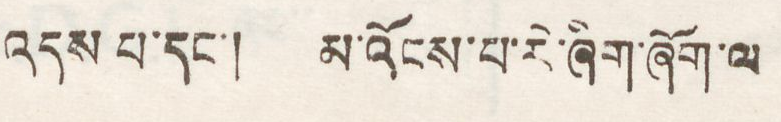འདས པ་དང། མ་འོངས་པ་རེ་ཞིག་ཞིག་ལ
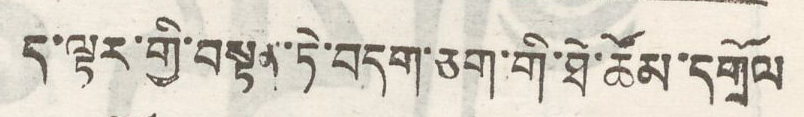ད་ལྟར་གྱི་བསྟན་ཏེ་བདག་ཅག་གི་ཐེ་ཚོམ་དགྲོལ
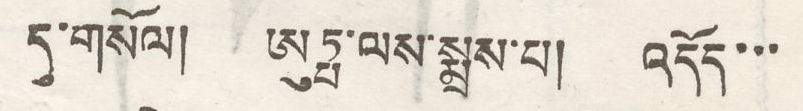དུ་གསོལ། ཨུཏྤ་ལས་སྨྲས་པ། འདོད་་་
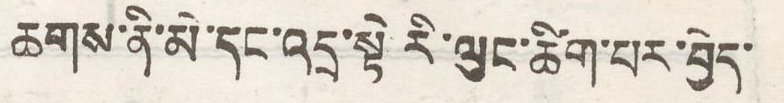ཆགས་ནི་མེ་དང་འདྲ་སྟེ རི་ལུང་ཚིག་པར་བྱེད་
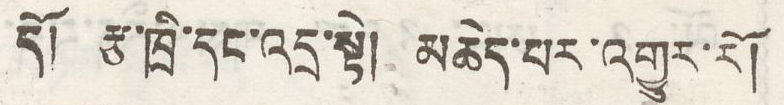དོ། རྩ་ཁྲི་དང་འདྲ་སྟེ། མཆེད་པར་འགྱུར་རོ།
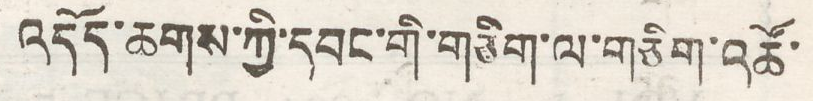འདོད་ཆགས་ཀྱི་དབང་གི་གཅིག་ལ་གཅིག་འཚོ་
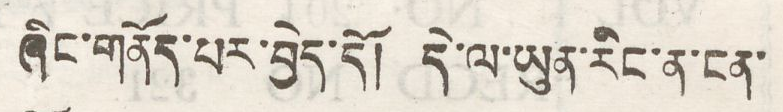ཞིང་གནོད་པར་བྱེད་དོ། དེ་ལ་ཡུན་རིང་ན་ངན་
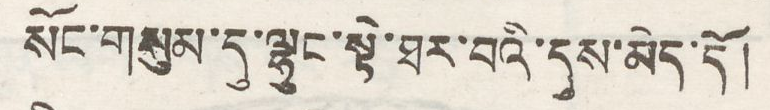སོང་གསུམ་དུ་ལྷུང་སྟེ་ཐར་བའི་དུས་མེད་དོ།
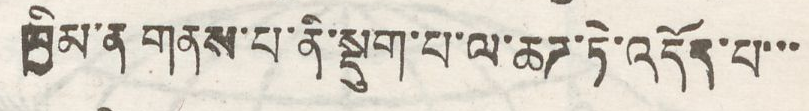ཁྱིམ་ན གནས་པ་ནི་སྡུག་པ་ལ་ཆཌ་ཏེ་འདོད་པ་་་
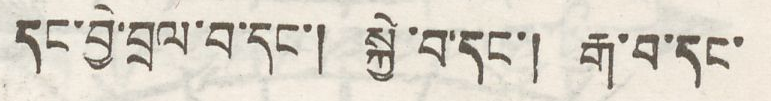དང་བྱེ་བྲལ་བ་དང་། སྐྱེ་བ་དང་། རྒ་བ་དང་
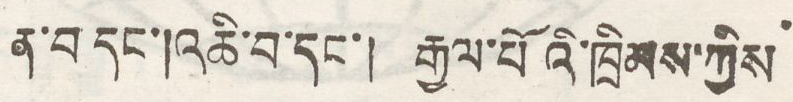ན་བ དང་། འཆི་བ་དང་། རྒྱལ་པོའི་ཁྲིམས་ཀྱིས
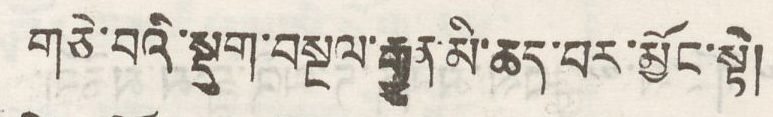གཅེས་བའི་སྡུག་བསྔལ་རྒྱུན་མི་ཆད་པར་མྱོང་སྟེ།
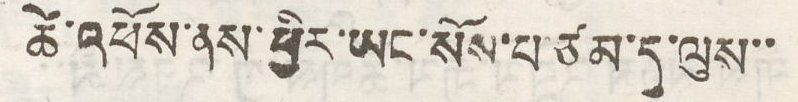ཚེ་འཕོས་ནས་ཕྱིར་ཡང་སོས་པ ཙམ་དུ་ལུས་་
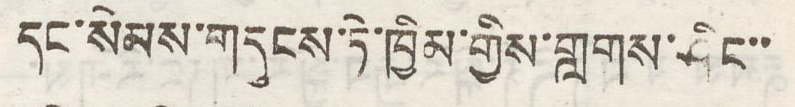དང་སེམས་གདུངས་ཏེ་ཁྱིམ་གྱིས་གླགས་ཤིང་་
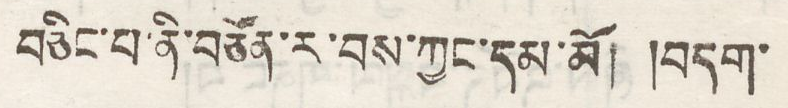བཅིང་བ་ནི་བཙོན་ར་བས་ཀྱང་དམ་མོ། །བདག་
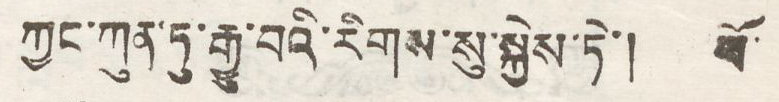ཀྱང་ཀུན་ཏྱ་རྒྱུ་བའི་རིགས་སུ་སྐྱེས་ཏེ་། བོ་
